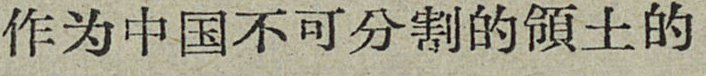作为中国不可分割的領土的
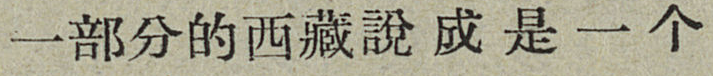一部分的西藏說成是一个
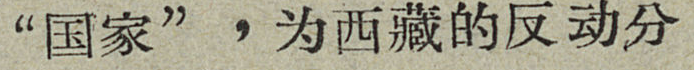“国家”，为西藏的反动分
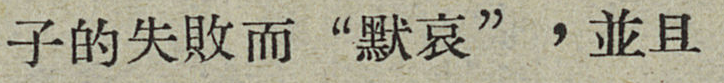子的失敗而“默哀”，並且
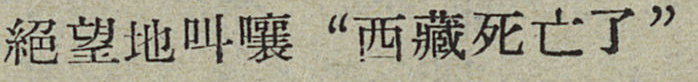絕望地叫嚷“西藏死亡了”
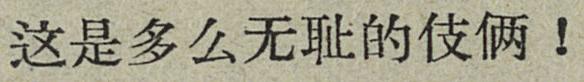这是多么无耻的伎俩！
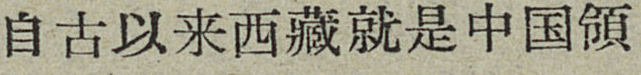自古以来西藏就是中国領
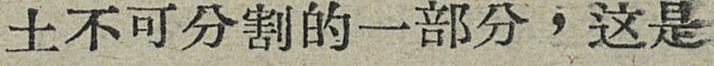土不可分割的一部分，这是
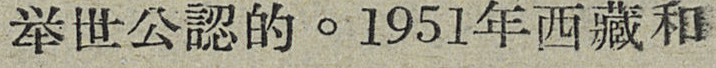举世公認的。1951年西藏和
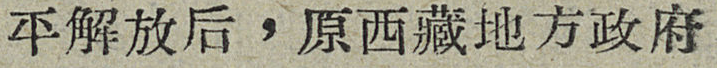平解放后，原西藏地方政府
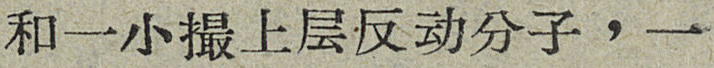和一小撮上层反动分子，一
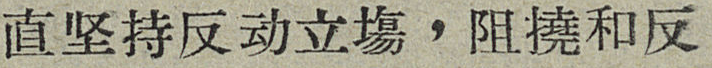直坚持反动立塲，阻撓和反
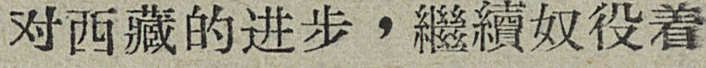对西藏的进步，繼續奴役着
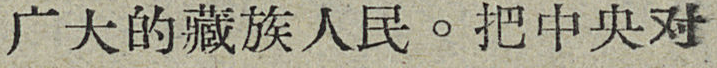广大的藏族人民。把中央对
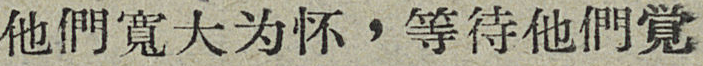他們寬大为怀，等待他们覚
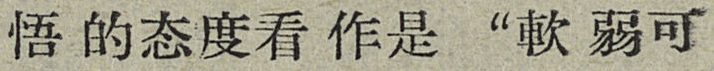悟的态度看作是“軟弱可
